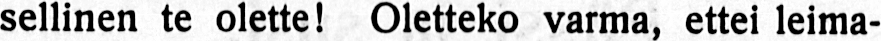sellinen te olette! Oletteko varma, ettei leima-
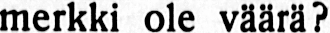merkki ole väärä?
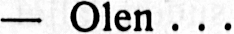— Olen . . .
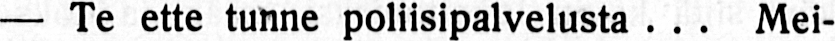— Te ette tunne poliisipalvelusta . . . Mei-
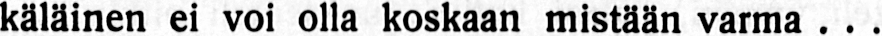käläinen ei voi olla koskaan mistään varma . . .
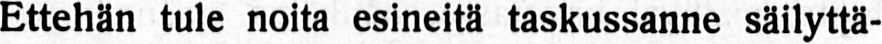Ettehän tule noita esineitä taskussanne säilyttä-
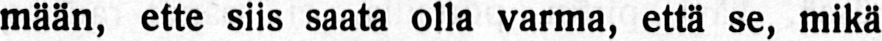mään, ette siis saata olla varma, että se, mikä
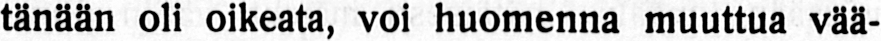tänään oli oikeata, voi huomenna muuttua vää-
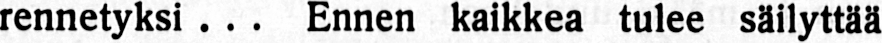rennetyksi . . . Ennen kaikkea tulee säilyttää
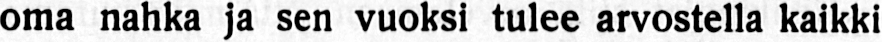oma nahka ja sen vuoksi tulee arvostella kaikki
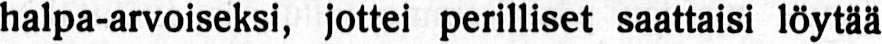halpa-arvoiseksi, jottei perilliset saattaisi löytää
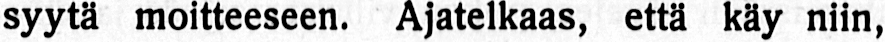syytä moitteeseen. Ajatelkaas, että käy niin,
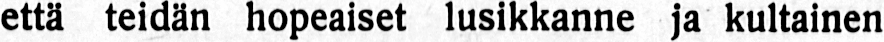että teidän hopeaiset lusikkanne ja kultainen
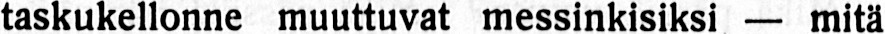taskukellonne muuttuvat messinkisiksi — mitä
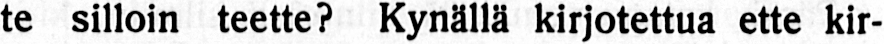te silloin teette? Kynällä kirjotettua ette kir-
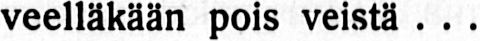veelläkään pois veistä . . .
